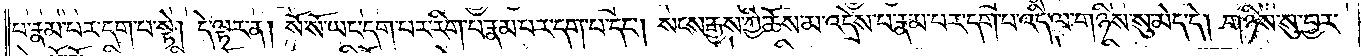པ་རྣམ་པར་དག་པ་སྟེ། དེ་ལྟར་ན། སོ་སོ་ཡང་དག་པར་རིག་པ་རྣམ་པར་དག་པ་དང༌། སངས་རྒྱས་ཀྱི་ཆོས་མ་འདྲེས་པ་རྣམ་པར་དག་པ་འདི་ལ་གཉིས་སུ་མེད་དེ། གཉིས་སུ་བྱར་
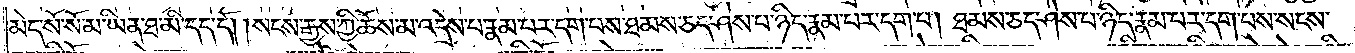མེད་སོ་སོ་མ་ཡིན་ཐ་མི་དད་དོ། །སངས་རྒྱས་ཀྱི་ཆོས་མ་འདྲེས་པ་རྣམ་པར་དག་པས་ཐམས་ཅད་ཤེས་པ་ཉིད་རྣམ་པར་དག་པ། ཐམས་ཅད་ཤེས་པ་ཉིད་རྣམ་པར་དག་པས་སངས་
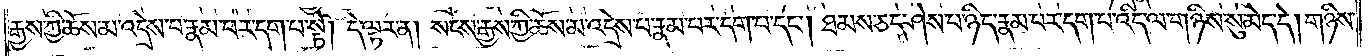རྒྱས་ཀྱི་ཆོས་མ་འདྲེས་པ་རྣམ་པར་དག་པ་སྟེ། དེ་ལྟར་ན། སངས་རྒྱས་ཀྱི་ཆོས་མ་འདྲེས་པ་རྣམ་པར་དག་པ་དང༌། ཐམས་ཅད་ཤེས་པ་ཉིད་རྣམ་པར་དག་པ་འདི་ལ་གཉིས་སུ་མེད་དེ། གཉིས་
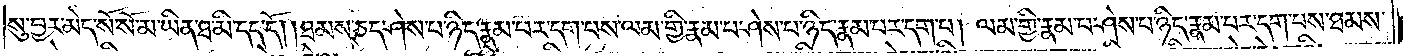སུ་བྱར་མེད་སོ་སོ་མ་ཡིན་ཐ་མི་དད་དོ། །ཐམས་ཅད་ཤེས་པ་ཉིད་རྣམ་པར་དག་པས་ལམ་གྱི་རྣམ་པར་ཤེས་པ་ཉིད་རྣམ་པར་དག་པ། ལམ་གྱི་རྣམ་པར་ཤེས་པ་ཉིད་རྣམ་པར་དག་པས་ཐམས་
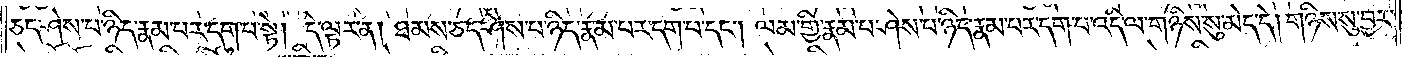ཅད་ཤེས་པ་ཉིད་རྣམ་པར་དག་པ་སྟེ། དེ་ལྟར་ན། ཐམས་ཅད་ཤེས་པ་ཉིད་རྣམ་པར་དག་པ་དང༌། ལམ་གྱི་རྣམ་པར་ཤེས་པ་ཉིད་རྣམ་པར་དག་པ་འདི་ལ་གཉིས་སུ་མེད་དེ། གཉིས་སུ་བྱར་
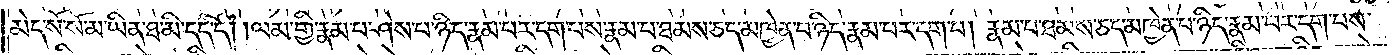མེད་སོ་སོ་མ་ཡིན་ཐ་མི་དད་དོ། །ལམ་གྱི་རྣམ་པ་ཤེས་པ་ཉིད་རྣམ་པར་དག་པས་རྣམ་པར་ཐམས་ཅད་མཁྱེན་པ་ཉིད་རྣམ་པར་དག་པ། རྣམ་པ་ཐམས་ཅད་མཁྱེན་པ་ཉིད་རྣམ་པར་དག་པས་
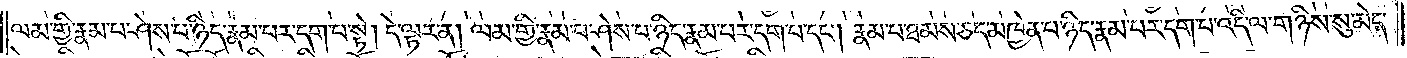ལམ་གྱི་རྣམ་པར་ཤེས་པ་ཉིད་རྣམ་པར་དག་པ་སྟེ། དེ་ལྟར་ན། ལམ་གྱི་རྣམ་པར་ཤེས་པ་ཉིད་རྣམ་པར་དག་པ་དང༌། རྣམ་པ་ཐམས་ཅད་མཁྱེན་པ་ཉིད་རྣམ་པར་དག་པ་འདི་ལ་གཉིས་སུ་མེད་
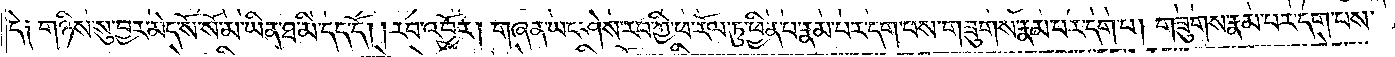དེ། གཉིས་སུ་བྱར་མེད་སོ་སོ་མ་ཡིན་ཐ་མི་དད་དོ། །རབ་འབྱོར་གཞན་ཡང་ཤེས་རབ་ཀྱི་ཕ་རོལ་ཏུ་ཕྱིན་པ་རྣམ་པར་དག་པས་གཟུགས་རྣམ་པར་དག་པ། གཟུགས་རྣམ་པར་དག་པས་
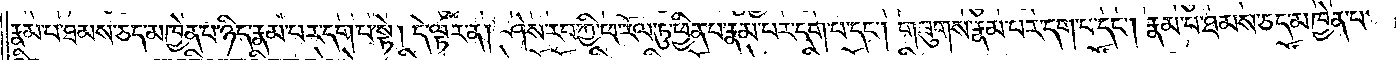རྣམ་པ་ཐམས་ཅད་མཁྱེན་པ་ཉིད་རྣམ་པར་དག་པ་སྟེ། དེ་ལྟར་ན། ཤེས་རབ་ཀྱི་ཕ་རོལ་ཏུ་ཕྱིན་པ་རྣམ་པར་དག་པ་དང༌། གཟུགས་རྣམ་པར་དག་པ་དང༌། རྣམ་པ་ཐམས་ཅད་མཁྱེན་པ་
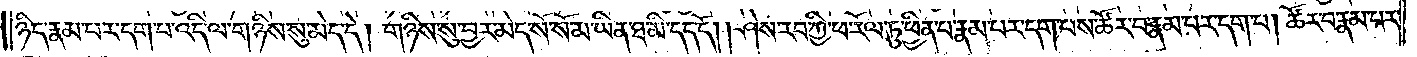ཉིད་རྣམ་པར་དག་པ་འདི་ལ་གཉིས་སུ་མེད་དེ། གཉིས་སུ་བྱར་མེད་སོ་སོ་མ་ཡིན་ཐ་མི་དད་དོ། །ཤེས་རབ་ཀྱི་ཕ་རོལ་ཏུ་ཕྱིན་པ་རྣམ་པར་དག་པས་ཚོར་བ་རྣམ་པར་དག་པ། ཚོར་བ་རྣམ་པར་
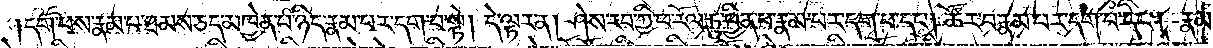དག་པས་རྣམ་པ་ཐམས་ཅད་མཁྱེན་པ་ཉིད་རྣམ་པར་དག་པ་སྟེ། དེ་ལྟར་ན། ཤེས་རབ་ཀྱི་ཕ་རོལ་ཏུ་ཕྱིན་པ་རྣམ་པར་དག་པ་དང༌། ཚོར་བ་རྣམ་པར་དག་པ་དང༌། རྣམ་
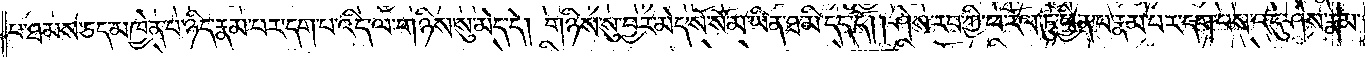པ་ཐམས་ཅད་མཁྱེན་པ་ཉིད་རྣམ་པར་དག་པ་འདི་ལ་གཉིས་སུ་མེད་དེ། གཉིས་སུ་བྱར་མེད་སོ་སོ་མ་ཡིན་ཐ་མི་དད་དོ། །ཤེས་རབ་ཀྱི་ཕ་རོལ་ཏུ་ཕྱིན་པ་རྣམ་པར་དག་པས་འདུ་ཤེས་རྣམ་
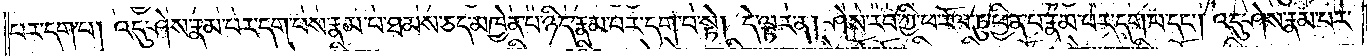པར་དག་པ།   འདུ་ཤེས་རྣམ་པར་དག་པས་རྣམ་པ་ཐམས་ཅད་མཁྱེན་པ་ཉིད་རྣམ་པར་དག་པ་སྟེ། དེ་ལྟར་ན། ཤེས་རབ་ཀྱི་ཕ་རོལ་ཏུ་ཕྱིན་པ་རྣམ་པར་དག་པ་དང༌། འདུ་ཤེས་རྣམ་པར་
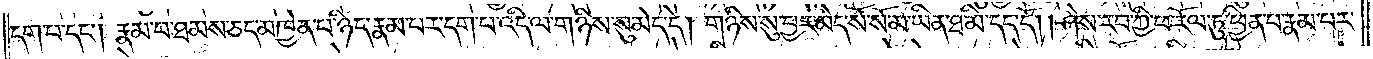དག་པ་དང༌། རྣམ་པ་ཐམས་ཅད་མཁྱེན་པ་ཉིད་རྣམ་པར་དག་པ་འདི་ལ་གཉིས་སུ་མེད་དེ། གཉིས་སུ་བྱར་མེད་སོ་སོ་མ་ཡིན་ཐ་མི་དད་དོ། །ཤེས་རབ་ཀྱི་ཕ་རོལ་ཏུ་ཕྱིན་པ་རྣམ་པར་
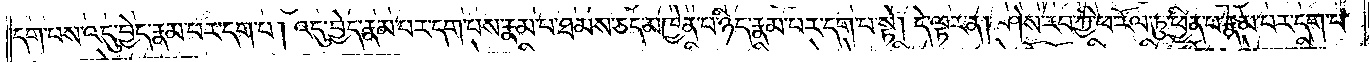དག་པས་འདུ་བྱེད་རྣམ་པར་དག་པ། འདུ་བྱེད་རྣམ་པར་དག་པས་རྣམ་པ་ཐམས་ཅད་མཁྱེན་པ་ཉིད་རྣམ་པར་དག་པ་སྟེ། དེ་ལྟར་ན། ཤེས་རབ་ཀྱི་ཕ་རོལ་ཏུ་ཕྱིན་པ་རྣམ་པར་དག་པ་
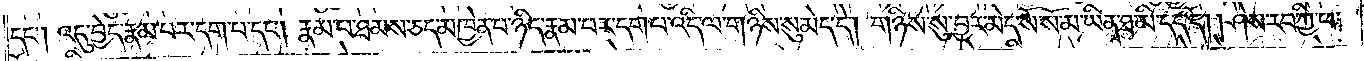དང༌། འདུ་བྱེད་རྣམ་པར་དག་པ་དང༌། རྣམ་པ་ཐམས་ཅད་མཁྱེན་པ་ཉིད་རྣམ་པར་དག་པ་འདི་ལ་གཉིས་སུ་མེད་དེ། གཉིས་སུ་བྱར་མེད་སོ་སོ་མ་ཡིན་ཐ་མི་དད་དོ། །ཤེས་རབ་ཀྱི་ཕ་
